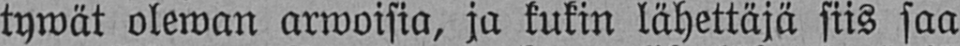tywät olewan arwoisia, ja kukin lähettäjä siis saa
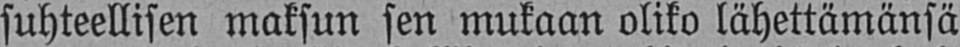suhteellisen maksun sen mukaan oliko lähettämänsä
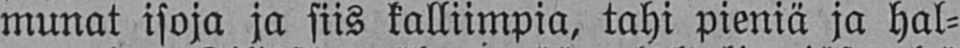munat isoja ja siis kalliimpia, tahi pieniä ja hal-
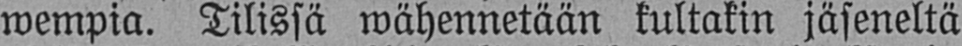wempia. Tilissä wähennetään kultakin jäseneltä
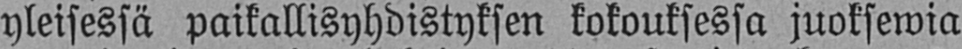yleisessä paikallisyhdistyksen kokouksessa juoksewia
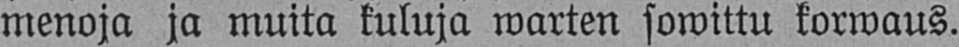menoja ja muita kuluja warten sowittu korwaus.
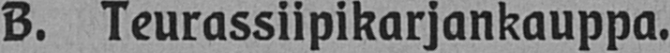B. Teurassiipikarjankauppa.
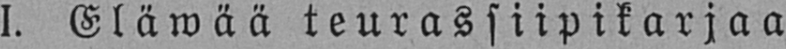I. Eläwää teurassiipikarjaa.
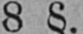8 §.
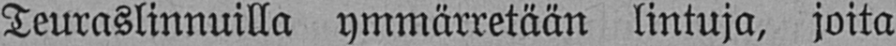Teuraslinnuilla ymmärretään lintuja, joita
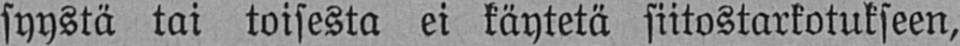syystä tai toisesta ei käytetä siitostarkotukseen,
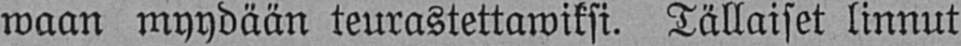waan myydään teurastettawiksi. Tällaiset linnut
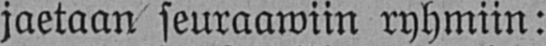jaetaan seuraawiin ryhmiin:
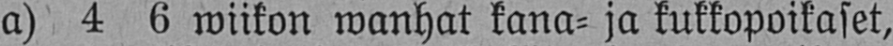a) 4 6 wiikon wanhat kana- ja kukkopoikaset,
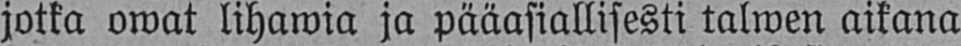jotka owat lihawia ja pääasiallisesti talwen aikana
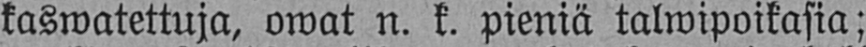kaswatettuja, owat n. k. pieniä talwipoikasia;
